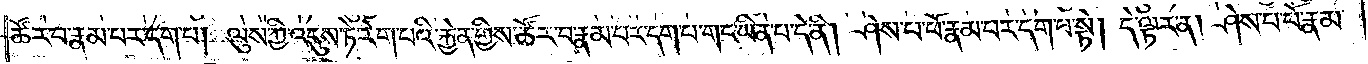ཚོར་བ་རྣམ་པར་དག་པ། ལུས་ཀྱི་འདུས་ཏེ་རེག་པའི་རྐྱེན་གྱིས་ཚོར་བ་རྣམ་པར་དག་པ་གང་ཡིན་པ་དེ་ནི། ཤེས་པ་པོ་རྣམ་པར་དག་པ་སྟེ། དེ་ལྟར་ན། ཤེས་པ་པོ་རྣམ་
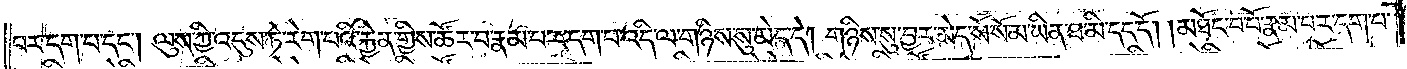པར་དག་པ་དང༌། ལུས་ཀྱི་འདུས་ཏེ་རེག་པའི་རྐྱེན་གྱིས་ཚོར་བ་རྣམ་པར་དག་པ་འདི་ལ་གཉིས་སུ་མེད་དེ། གཉིས་སུ་བྱར་མེད་སོ་སོ་མ་ཡིན་ཐ་མི་དད་དོ། །མཐོང་བ་པོ་རྣམ་པར་དག་པ་
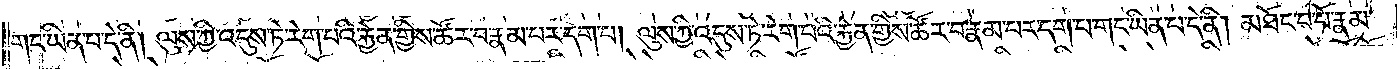གང་ཡིན་པ་དེ་ནི། ལུས་ཀྱི་འདུས་ཏེ་རེག་པའི་རྐྱེན་གྱིས་ཚོར་བ་རྣམ་པར་དག་པ། ལུས་ཀྱི་འདུས་ཏེ་རེག་པའི་རྐྱེན་གྱིས་ཚོར་བ་རྣམ་པར་དག་པ་གང་ཡིན་པ་དེ་ནི། མཐོང་བ་པོ་རྣམ་
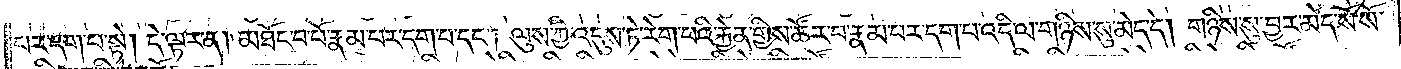པར་དག་པ་སྟེ། དེ་ལྟར་ན། མཐོང་བ་པོ་རྣམ་པར་དག་པ་དང༌། ལུས་ཀྱི་འདུས་ཏེ་རེག་པའི་རྐྱེན་གྱིས་ཚོར་བ་རྣམ་པར་དག་པ་འདི་ལ་གཉིས་སུ་མེད་དེ། གཉིས་སུ་བྱར་མེད་སོ་སོ་
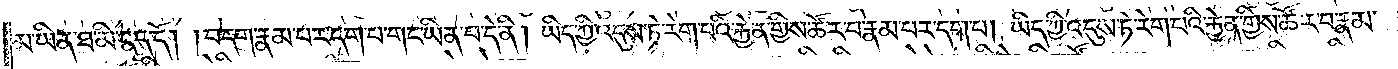མ་ཡིན་ཐ་མི་དད་དོ། །བདག་རྣམ་པར་དག་པ་གང་ཡིན་པ་དེ་ནི། ཡིད་ཀྱི་འདུས་ཏེ་རེག་པའི་རྐྱེན་གྱིས་ཚོར་བ་རྣམ་པར་དག་པ། ཡིད་ཀྱི་འདུས་ཏེ་རེག་པའི་རྐྱེན་གྱིས་ཚོར་བ་རྣམ་
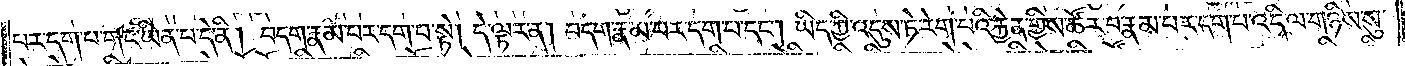པར་དག་པ་གང་ཡིན་པ་དེ་ནི། བདག་རྣམ་པར་དག་པ་སྟེ། དེ་ལྟར་ན། བདག་རྣམ་པར་དག་པ་དང༌། ཡིད་ཀྱི་འདུས་ཏེ་རེག་པའི་རྐྱེན་གྱིས་ཚོར་བ་རྣམ་པར་དག་པ་འདི་ལ་གཉིས་སུ་
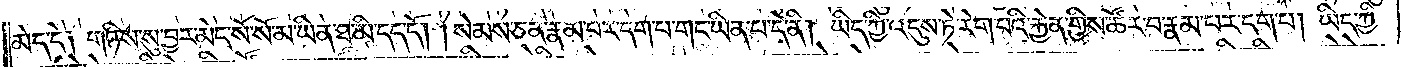མེད་དེ༑ གཉིས་སུ་བྱར་མེད་སོ་སོ་མ་ཡིན་ཐ་མི་དད་དོ། །སེམས་ཅན་རྣམ་པར་དག་པ་གང་ཡིན་པ་དེ་ནི། ཡིད་ཀྱི་འདུས་ཏེ་རེག་པའི་རྐྱེན་གྱིས་ཚོར་བ་རྣམ་པར་དག་པ། ཡིད་ཀྱི་
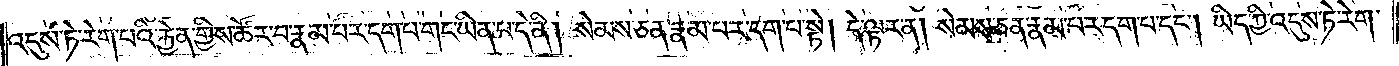འདུས་ཏེ་རེག་པའི་རྐྱེན་གྱིས་ཚོར་བ་རྣམ་པར་དག་པ་གང་ཡིན་པ་དེ་ནི། སེམས་ཅན་རྣམ་པར་དག་པ་སྟེ། དེ་ལྟར་ན། སེམས་ཅན་རྣམ་པར་དག་པ་དང༌། ཡིད་ཀྱི་འདུས་ཏེ་རེག་
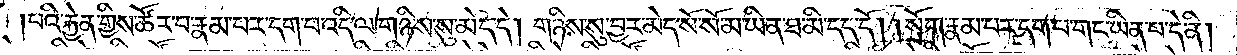པའི་རྐྱེན་གྱིས་ཚོར་བ་རྣམ་པར་དག་པ་འདི་ལ་གཉིས་སུ་མེད་དེ། གཉིས་སུ་བྱར་མེད་སོ་སོ་མ་ཡིན་ཐ་མི་དད་དོ། །སྲོག་རྣམ་པར་དག་པ་གང་ཡིན་པ་དེ་ནི།
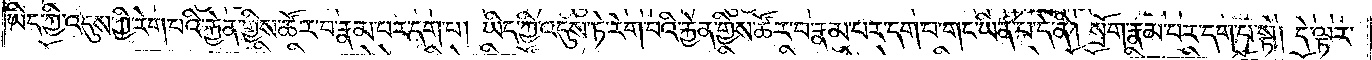ཡིད་ཀྱི་འདུས་ཏེ་རེག་པའི་རྐྱེན་གྱིས་ཚོར་བ་རྣམ་པར་དག་པ། ཡིད་ཀྱི་འདུས་ཏེ་རེག་པའི་རྐྱེན་གྱིས་ཚོར་བ་རྣམ་པར་དག་པ་གང་ཡིན་པ་དེ་ནི། སྲོག་རྣམ་པར་དག་པ་སྟེ། དེ་ལྟར་
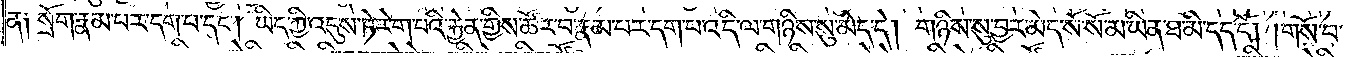ན༑ སྲོག་རྣམ་པར་དག་པ་དང༌། ཡིད་ཀྱི་འདུས་ཏེ་རེག་པའི་རྐྱེན་གྱིས་ཚོར་བ་རྣམ་པར་དག་པ་འདི་ལ་གཉིས་སུ་མེད་དེ། གཉིས་སུ་བྱར་མེད་སོ་སོ་མ་ཡིན་པ་མི་དད་དོ། །གསོ་བ་
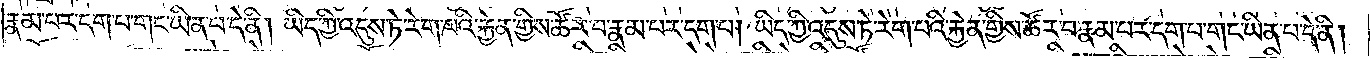རྣམ་པར་དག་པ་གང་ཡིན་པ་དེ་ནི། ཡིད་ཀྱི་འདུས་ཏེ་རེག་པའི་རྐྱེན་གྱིས་ཚོར་བ་རྣམ་པར་དག་པ། ཡིད་ཀྱི་འདུས་ཏེ་རེག་པའི་རྐྱེན་གྱིས་ཚོར་བ་རྣམ་པར་དག་པ་གང་ཡིན་པ་དེ་ནི།
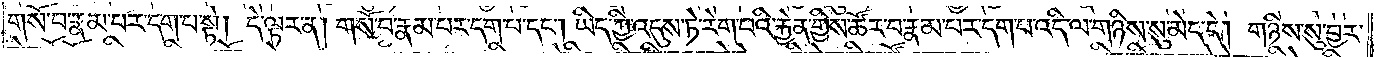གསོ་བ་རྣམ་པར་དག་པ་སྟེ། དེ་ལྟར་ན། གསོ་བ་རྣམ་པར་དག་པ་དང༌། ཡིད་ཀྱི་འདུས་ཏེ་རེག་པའི་རྐྱེན་གྱིས་ཚོར་བ་རྣམ་པར་དག་པ་འདི་ལ་གཉིས་སུ་མེད་དེ། གཉིས་སུ་བྱར་
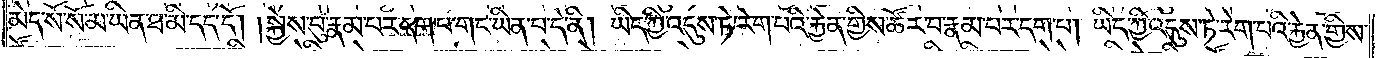མེད་སོ་སོ་མ་ཡིན་ཐ་མི་དད་དོ། །སྐྱེས་བུ་རྣམ་པར་དག་པ་གང་ཡིན་པ་དེ་ནི། ཡིད་ཀྱི་འདུས་ཏེ་རེག་པའི་རྐྱེན་གྱིས་ཚོར་བ་རྣམ་པར་དག་པ། ཡིད་ཀྱི་འདུས་ཏེ་རེག་པའི་རྐྱེན་གྱིས་
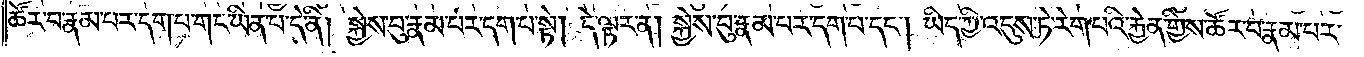ཚོར་བ་རྣམ་པར་དག་པ་གང་ཡིན་པ་དེ་ནི། སྐྱེས་བུ་རྣམ་པར་དག་པ་སྟེ། དེ་ལྟར་ན། སྐྱེས་བུ་རྣམ་པར་དག་པ་དང༌། ཡིད་ཀྱི་འདུས་ཏེ་རེག་པའི་རྐྱེན་གྱིས་ཚོར་བ་རྣམ་པར་
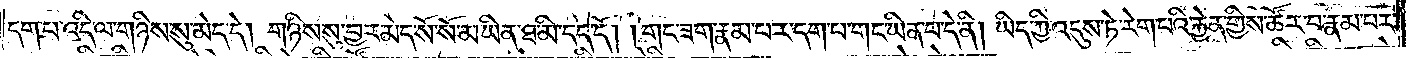དག་པ་འདི་ལ་གཉིས་སུ་མེད་དེ། གཉིས་སུ་བྱར་མེད་སོ་སོ་མ་ཡིན་ཐ་མི་དད་དོ། །གང་ཟག་རྣམ་པར་དག་པ་གང་ཡིན་པ་དེ་ནི། ཡིད་ཀྱི་འདུས་ཏེ་རེག་པའི་རྐྱེན་གྱིས་ཚོར་བ་རྣམ་པར་
